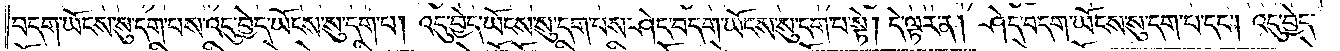བདག་ཡོངས་སུ་དག་པས་འདུ་བྱེད་ཡོངས་སུ་དག་པ། འདུ་བྱེད་ཡོངས་སུ་དག་པས་ཤེད་བདག་ཡོངས་སུ་དག་པ་སྟེ། དེ་ལྟར་ན། ཤེད་བདག་ཡོངས་སུ་དག་པ་དང༌། འདུ་བྱེད་
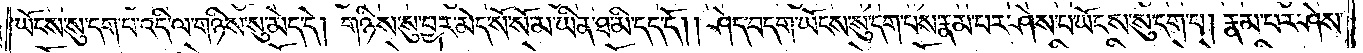ཡོངས་སུ་དག་པ་འདི་ལ་གཉིས་སུ་མེད་དེ། གཉིས་སུ་བྱར་མེད་སོ་སོ་མ་ཡིན་ཐ་མི་དད་དོ། །ཤེད་བདག་ཡོངས་སུ་དག་པས་རྣམ་པར་ཤེས་པ་ཡོངས་སུ་དག་པ། རྣམ་པར་ཤེས་
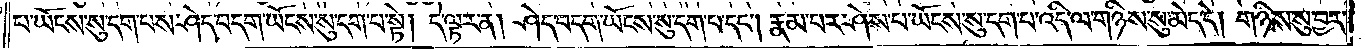པ་ཡོངས་སུ་དག་པས་ཤེད་བདག་ཡོངས་སུ་དག་པ་སྟེ། དེ་ལྟར་ན། ཤེད་བདག་ཡོངས་སུ་དག་པ་དང༌། རྣམ་པར་ཤེས་པ་ཡོངས་སུ་དག་པ་འདི་ལ་གཉིས་སུ་མེད་དེ། གཉིས་སུ་བྱར་
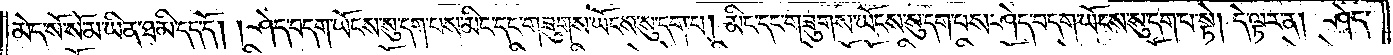མེད་སོ་སོ་མ་ཡིན་ཐ་མི་དད་དོ། །ཤེད་བདག་ཡོངས་སུ་དག་པས་མིང་དང་གཟུགས་ཡོངས་སུ་དག་པ། མིང་དང་གཟུགས་ཡོངས་སུ་དག་པས་ཤེད་བདག་ཡོངས་སུ་དག་པ་སྟེ། དེ་ལྟར་ན། ཤེད་
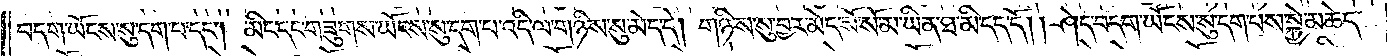བདག་ཡོངས་སུ་དག་པ་དང༌། མིང་དང་གཟུགས་ཡོངས་སུ་དག་པ་འདི་ལ་གཉིས་སུ་མེད་དེ། གཉིས་སུ་བྱར་མེད་སོ་སོ་མ་ཡིན་ཐ་མི་དད་དོ། །ཤེད་བདག་ཡོངས་སུ་དག་པས་སྐྱེ་མཆེད་
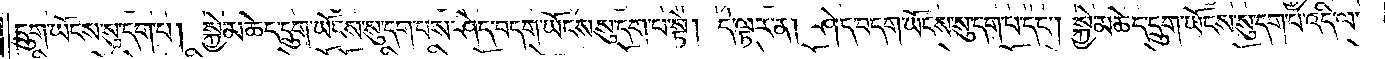དྲུག་ཡོངས་སུ་དག་པ། སྐྱེ་མཆེད་དྲུག་ཡོངས་སུ་དག་པས་ཤེད་བདག་ཡོངས་སུ་དག་པ་སྟེ། དེ་ལྟར་ན། ཤེད་བདག་ཡོངས་སུ་དག་པ་དང༌། སྐྱེ་མཆེད་དྲུག་ཡོངས་སུ་དག་པ་འདི་ལ་
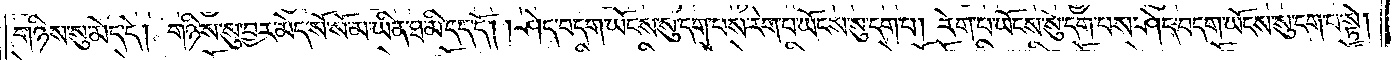གཉིས་སུ་མེད་དེ། གཉིས་སུ་བྱར་མེད་སོ་སོ་མ་ཡིན་ཐ་མི་དད་དོ། །ཤེད་བདག་ཡོངས་སུ་དག་པས་རེག་པ་ཡོངས་སུ་དག་པ། རེག་པ་ཡོངས་སུ་དག་པས་ཤེད་བདག་ཡོངས་སུ་དག་པ་སྟེ།
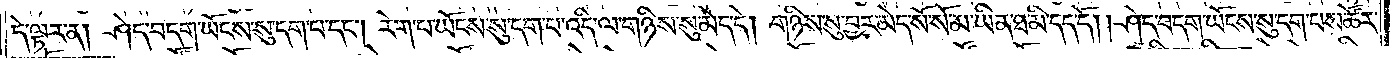དེ་ལྟར་ན། ཤེད་བདག་ཡོངས་སུ་དག་པ་དང༌། རེག་པ་ཡོངས་སུ་དག་པ་འདི་ལ་གཉིས་སུ་མེད་དེ། གཉིས་སུ་བྱར་མེད་སོ་སོ་མ་ཡིན་ཐ་མི་དད་དོ། །ཤེད་བདག་ཡོངས་སུ་དག་པས་ཚོར་
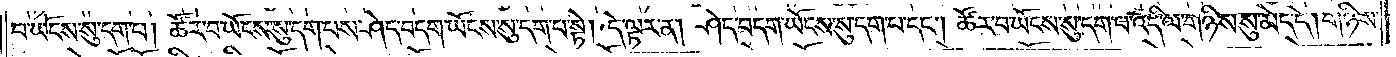བ་ཡོངས་སུ་དག་པ། ཚོར་བ་ཡོངས་སུ་དག་པས་ཤེད་བདག་ཡོངས་སུ་དག་པ་སྟེ། དེ་ལྟར་ན། ཤེད་བདག་ཡོངས་སུ་དག་པ་དང༌། ཚོར་བ་ཡོངས་སུ་དག་པ་འདི་ལ་གཉིས་སུ་མེད་དེ། གཉིས་
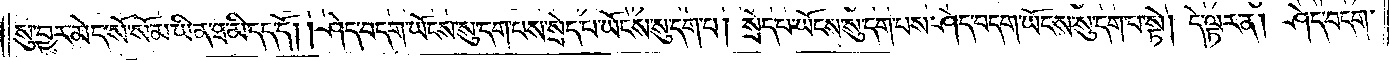སུ་བྱར་མེད་སོ་སོ་མ་ཡིན་ཐ་མི་དད་དོ། །ཤེད་བདག་ཡོངས་སུ་དག་པས་སྲེད་པ་ཡོངས་སུ་དག་པ། སྲེད་པ་ཡོངས་སུ་དག་པས་ཤེད་བདག་ཡོངས་སུ་དག་པ་སྟེ། དེ་ལྟར་ན། ཤེད་བདག་
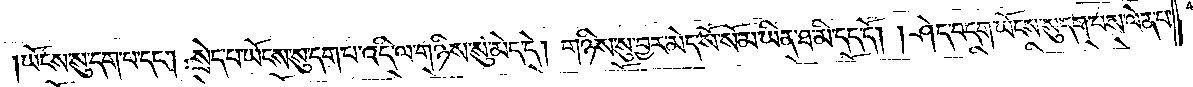ཡོངས་སུ་དག་པ་དང༌། སྲེད་པ་ཡོངས་སུ་དག་པ་འདི་ལ་གཉིས་སུ་མེད་དེ། གཉིས་སུ་བྱར་མེད་སོ་སོ་མ་ཡིན་ཐ་མི་དད་དོ། །ཤེད་བདག་ཡོངས་སུ་དག་པས་ལེན་པ་
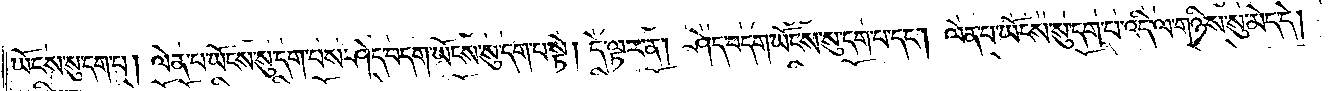ཡོངས་སུ་དག་པ། ལེན་པ་ཡོངས་སུ་དག་པས་ཤེད་བདག་ཡོངས་སུ་དག་པ་སྟེ། དེ་ལྟར་ན། ཤེད་བདག་ཡོངས་སུ་དག་པ་དང༌། ལེན་པ་ཡོངས་སུ་དག་པ་འདི་ལ་གཉིས་སུ་མེད་དེ།
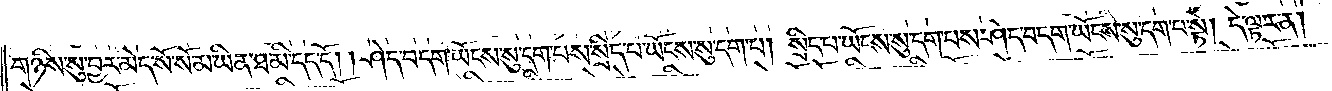གཉིས་སུ་བྱར་མེད་སོ་སོ་མ་ཡིན་ཐ་མི་དད་དོ། །ཤེད་བདག་ཡོངས་སུ་དག་པས་སྲིད་པ་ཡོངས་སུ་དག་པ། སྲིད་པ་ཡོངས་སུ་དག་པས་ཤེད་བདག་ཡོངས་སུ་དག་པ་སྟེ། དེ་ལྟར་ན།
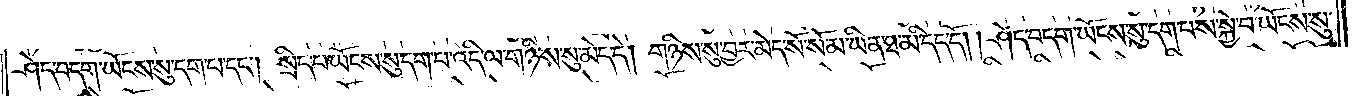ཤེད་བདག་ཡོངས་སུ་དག་པ་དང༌། སྲིད་པ་ཡོངས་སུ་དག་པ་འདི་ལ་གཉིས་སུ་མེད་དེ། གཉིས་སུ་བྱར་མེད་སོ་སོ་མ་ཡིན་ཐ་མི་དད་དོ། ། ཤེད་བདག་ཡོངས་སུ་དག་པས་སྐྱེ་བ་ཡོངས་སུ་
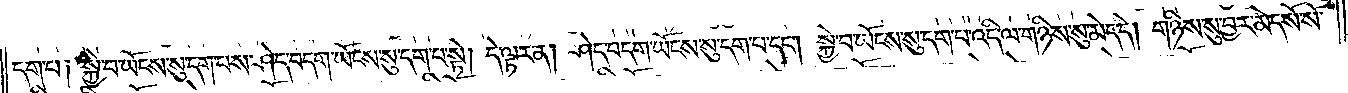དག་པ། སྐྱེ་བ་ཡོངས་སུ་དག་པས་ཤེད་བདག་ཡོངས་སུ་དག་པ་སྟེ། དེ་ལྟར་ན། ཤེད་བདག་ཡོངས་སུ་དག་པ་དང༌། སྐྱེ་བ་ཡོངས་སུ་དག་པ་འདི་ལ་གཉིས་སུ་མེད་དེ། གཉིས་སུ་བྱར་མེད་སོ་སོ་
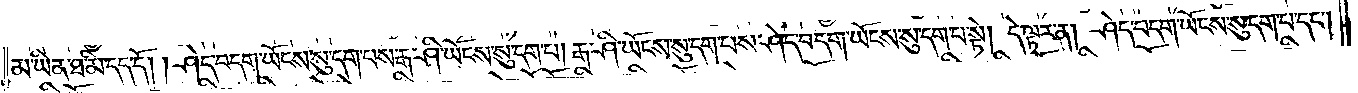མ་ཡིན་ཐ་མི་དད་དོ། །ཤེད་བདག་ཡོངས་སུ་དག་པས་རྒ་ཤི་ཡོངས་སུ་དག་པ། རྒ་ཤི་ཡོངས་སུ་དག་པས་ཤེད་བདག་ཡོངས་སུ་དག་པ་སྟེ། དེ་ལྟར་ན། ཤེད་བདག་ཡོངས་སུ་དག་པ་དང༌།
